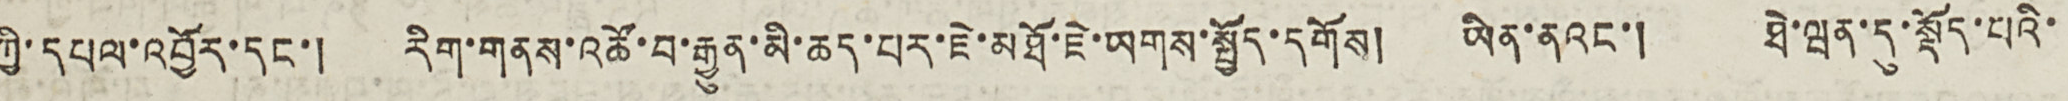ཀྱི་དཔལ་འབྱོར་དང་། རིག་གནས་འཚོ་བ་རྒྱུན་མི་ཆད་པར་ཇེ་མཐོ་ཇེ་ཡགས་སྤྱོད་དགོས། ཡིན་ནའང་། ཐེ་ཝན་དུ་སྡོད་པའི་
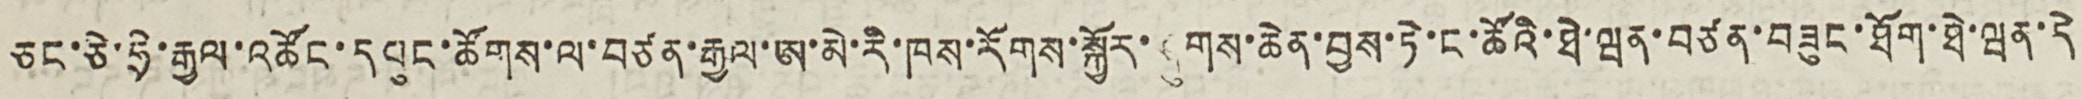ཅང་ཅེ་ཧྲི་རྒྱལ་འཚོང་དཔུང་ཚོགས་ལ་བཙན་རྒྱལ་ཨ་མེ་རི་ཁས་རོགས་སྐྱོར་ཤུགས་ཆེན་བྱས་ཏེ་ང་ཚོའི་ཐེ་ཝན་བཙན་བཟུང་ཐོག་ཐེ་ཝན་དེ
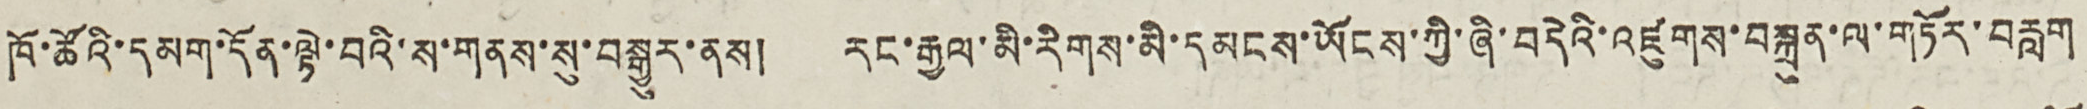ཁོ་ཚོའི་དམག་དོན་ལྟེ་བའི་ས་གནས་སུ་བསྒྱུར་ནས། རང་རྒྱལ་མི་རིགས་མི་དམངས་ཡོངས་ཀྱི་ཞི་བདེའི་འཛུགས་བསྐྲུན་ལ་གཏོར་བརླག
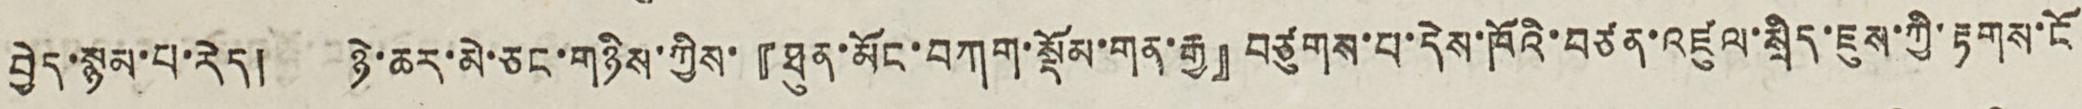བྱེད་སྙམ་པ་རེད། ཉེ་ཆར་མེ་ཅང་གཉིས་ཀྱིས་『ཐུན་མོང་བཀག་སྡོམ་གན་རྒྱ』བཙུགས་པ་དེས་ཁོའི་བཙན་འཛུལ་སྲིད་ཇུས་ཀྱི་རྟགས་ངོ
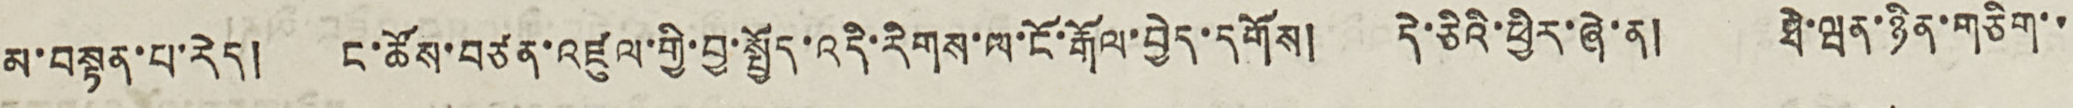མ་བསྟན་པ་རེད། ང་ཚོས་བཙན་འཛུལ་གྱི་བྱ་སྤྱོད་འདི་རིགས་ལ་ངོ་རྒོལ་བྱེད་དགོས། དེ་ཅིའི་ཕྱིར་ཞེ་ན། ཐེ་ཝན་ཉིན་གཅིག་་
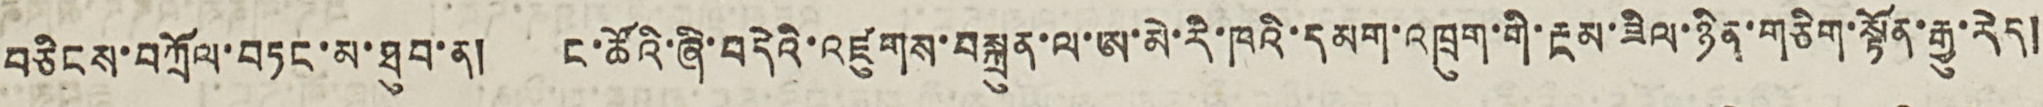བཅིངས་བཀྲོལ་བཏང་མ་ཐུབ་ན། ང་ཚོའི་ཞི་བདེའི་འཛུགས་བསྐྲུན་ལ་ཨ་མེ་རི་ཁའི་དམག་འཁྲུག་གི་རྔམ་ཟིལ་ཉིན་གཅིག་སྟོན་རྒྱུ་རེད།
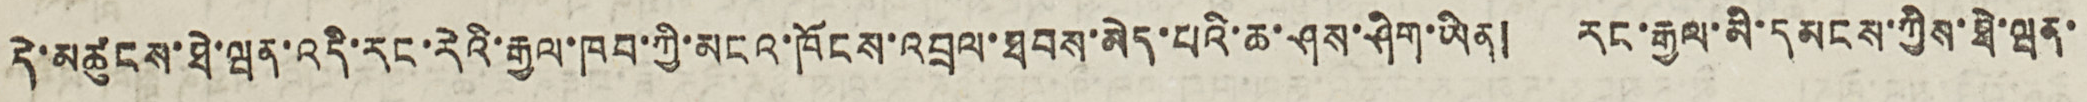དེ་མཚུངས་ཐེ་ཝན་འདི་རང་རེའི་རྒྱལ་ཁབ་ཀྱི་མངའ་ཁོངས་འབྲལ་ཐབས་མེད་པའི་ཆ་ཤས་ཤིག་ཡིན། རང་རྒྱལ་མི་དམངས་ཀྱིས་ཐེ་ཝན་
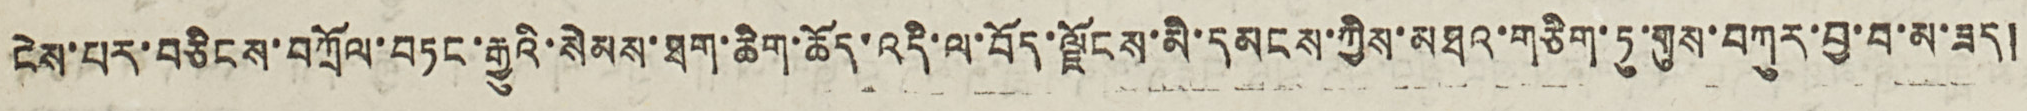ངེས་པར་བཅིངས་བཀྲོལ་བཏང་རྒྱུའི་སེམས་ཐག་ཚིག་ཆོད་འདི་ལ་བོད་ལྗོངས་མི་དམངས་ཀྱིས་མཐའ་གཅིག་ཏུ་གུས་བཀུར་བྱ་བ་མ་ཟད།
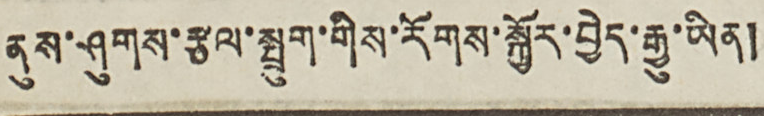ནུས་ཤུགས་རྩལ་སྤྲུག་གིས་རོགས་སྐྱོར་བྱེད་རྒྱུ་ཡིན།
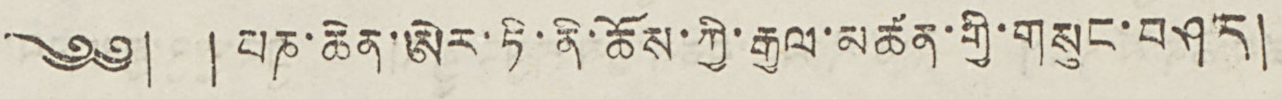༄༅། །པཎ་ཆེན་ཨེར་ཏི་ནི་ཆོས་ཀྱི་རྒྱལ་མཚན་གྱི་གསུང་བཤད།
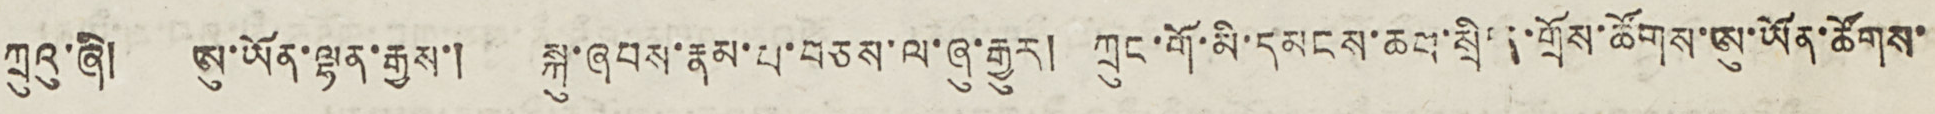ཀྲུའུ་ཞི། ཨུ་ཡོན་ལྷན་རྒྱས་། སྐུ་ཞབས་རྣམ་པ་བཅས་ལ་ཞུ་རྒྱུར། ཀྲུང་གོ་མི་དམངས་ཆབ་སྲིད་གྲོས་ཚོགས་ཨུ་ཡོན་ཚོགས་
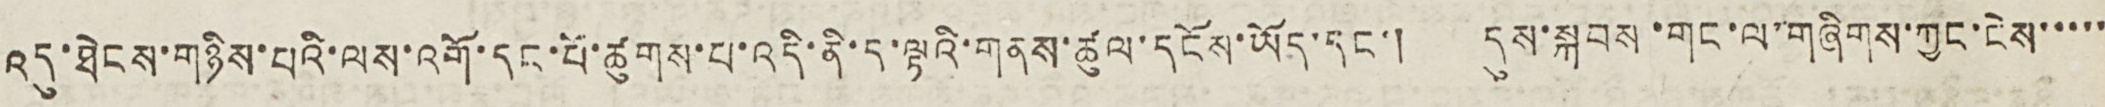འདུ་ཐེངས་གཉིས་པའི་ལས་འགོ་དང་པོ་ཚུགས་པ་འདི་ནི་ད་ལྟའི་གནས་ཚུལ་དངོས་ཡོད་དང་། དུས་སྐབས་གང་ལ་གཞིགས་ཀྱང་ངེས་་་་་
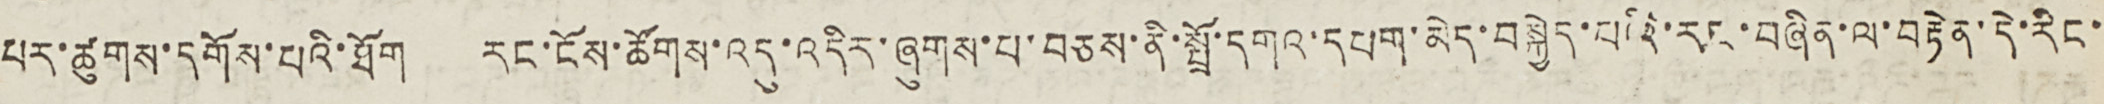པར་ཚུགས་དགོས་པའི་ཐོག རང་ངོས་ཚོགས་འདུ་འདིར་ཞུགས་པ་བཅས་ནི་སྤྲོ་དགའ་དཔག་མེད་བསྐྱེད་པའི་རང་བཞིན་ལ་བརྟེན་དེ་རིང་
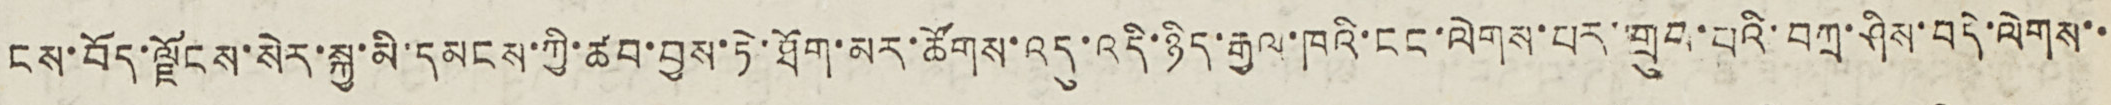ངས་བོད་ལྗོངས་སེར་སྐྱ་མི་དམངས་ཀྱི་ཚབ་བྱས་ཏེ་ཐོག་མར་ཚོགས་འདུ་འདི་ཉིད་རྒྱལ་ཁའི་ངང་ལེགས་པར་གྲུབ་པའི་བཀྲ་ཤིས་བདེ་ལེགས་་
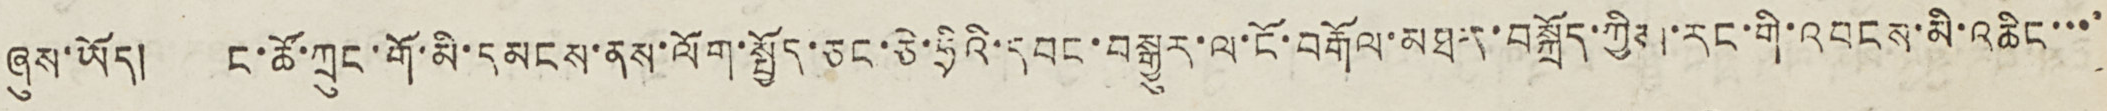ཞུས་ཡོད། ང་ཚོ་ཀྲུང་གོ་མི་དམངས་ནས་ལོག་སྤྱོད་ཅང་ཅི་ཧྲིའི་དབང་བསྒྱུར་ལ་ངོ་བརྒོལ་མཐར་བསྐྲོད་ཀྱིས་རང་གི་འབངས་མི་འཆིང་་་་
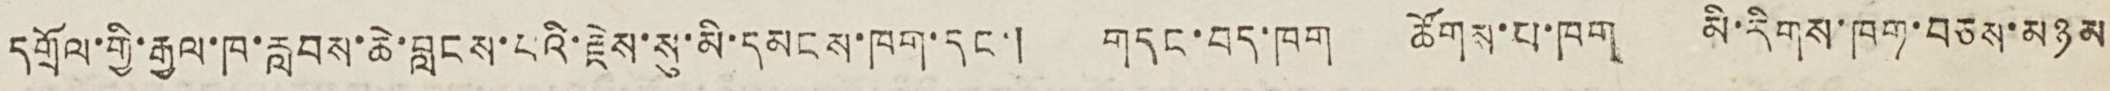དགྲོལ་གྱི་རྒྱལ་ཁ་རླབས་ཆེ་བླངས་པའི་རྗེས་སུ་མི་དམངས་ཁག་དང་། གདང་བད་ཁག ཚོགས་པ་ཁག མི་རིགས་ཁག་བཅས་མཉམ
